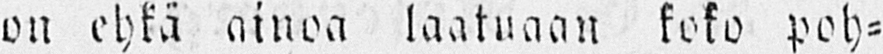on ehkä ainoa laatuaan keko poh-
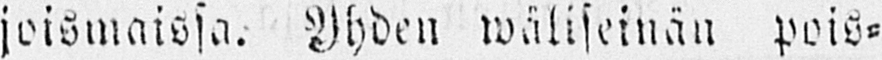joismaissa. wäliseinän pois-
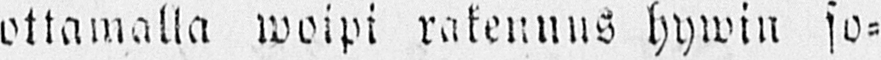ottamalla woipi rakennus hywin so-
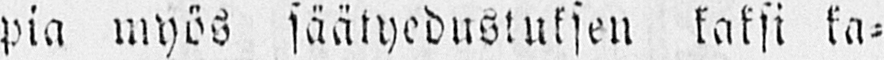pia myös säätyedustuksen kaksi ka-
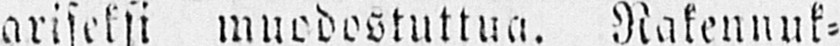mariseksi muodostuttua. Rakennuk-
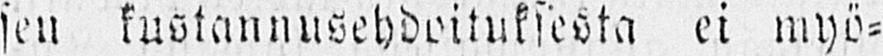sen kustannusehdoituksesta ei myö-
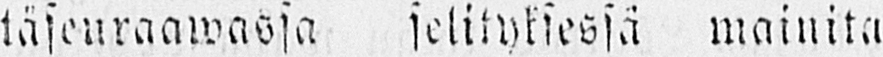täseuraawassa selityksessä mainita
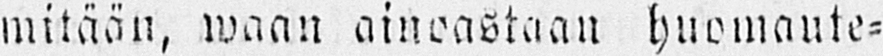mitään, waan ainoastaan huomaute-
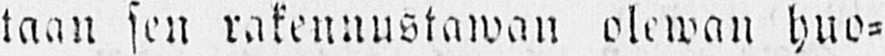taan sen rakennustawan olewan huo-
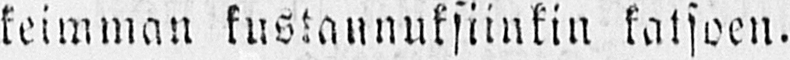keimman kustannuksiinkin katsoen.
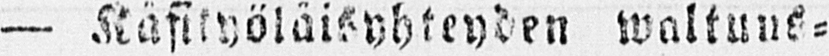— Käsityöläisyhteyden waltuus-
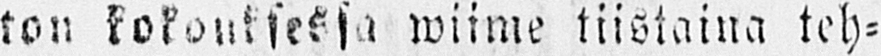ton kokouksessa wiime tiistaina teh-
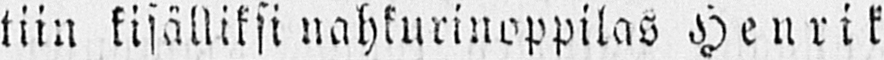tiin kisälliksi nahkurinoppilas Henrik
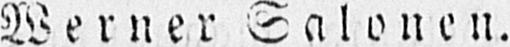Werner Salonen.
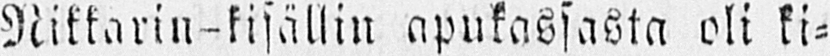Nikkarin-kisällin apukassasta oli ki-
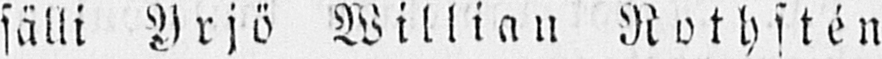sälli Yrjö Willian Rothstén
